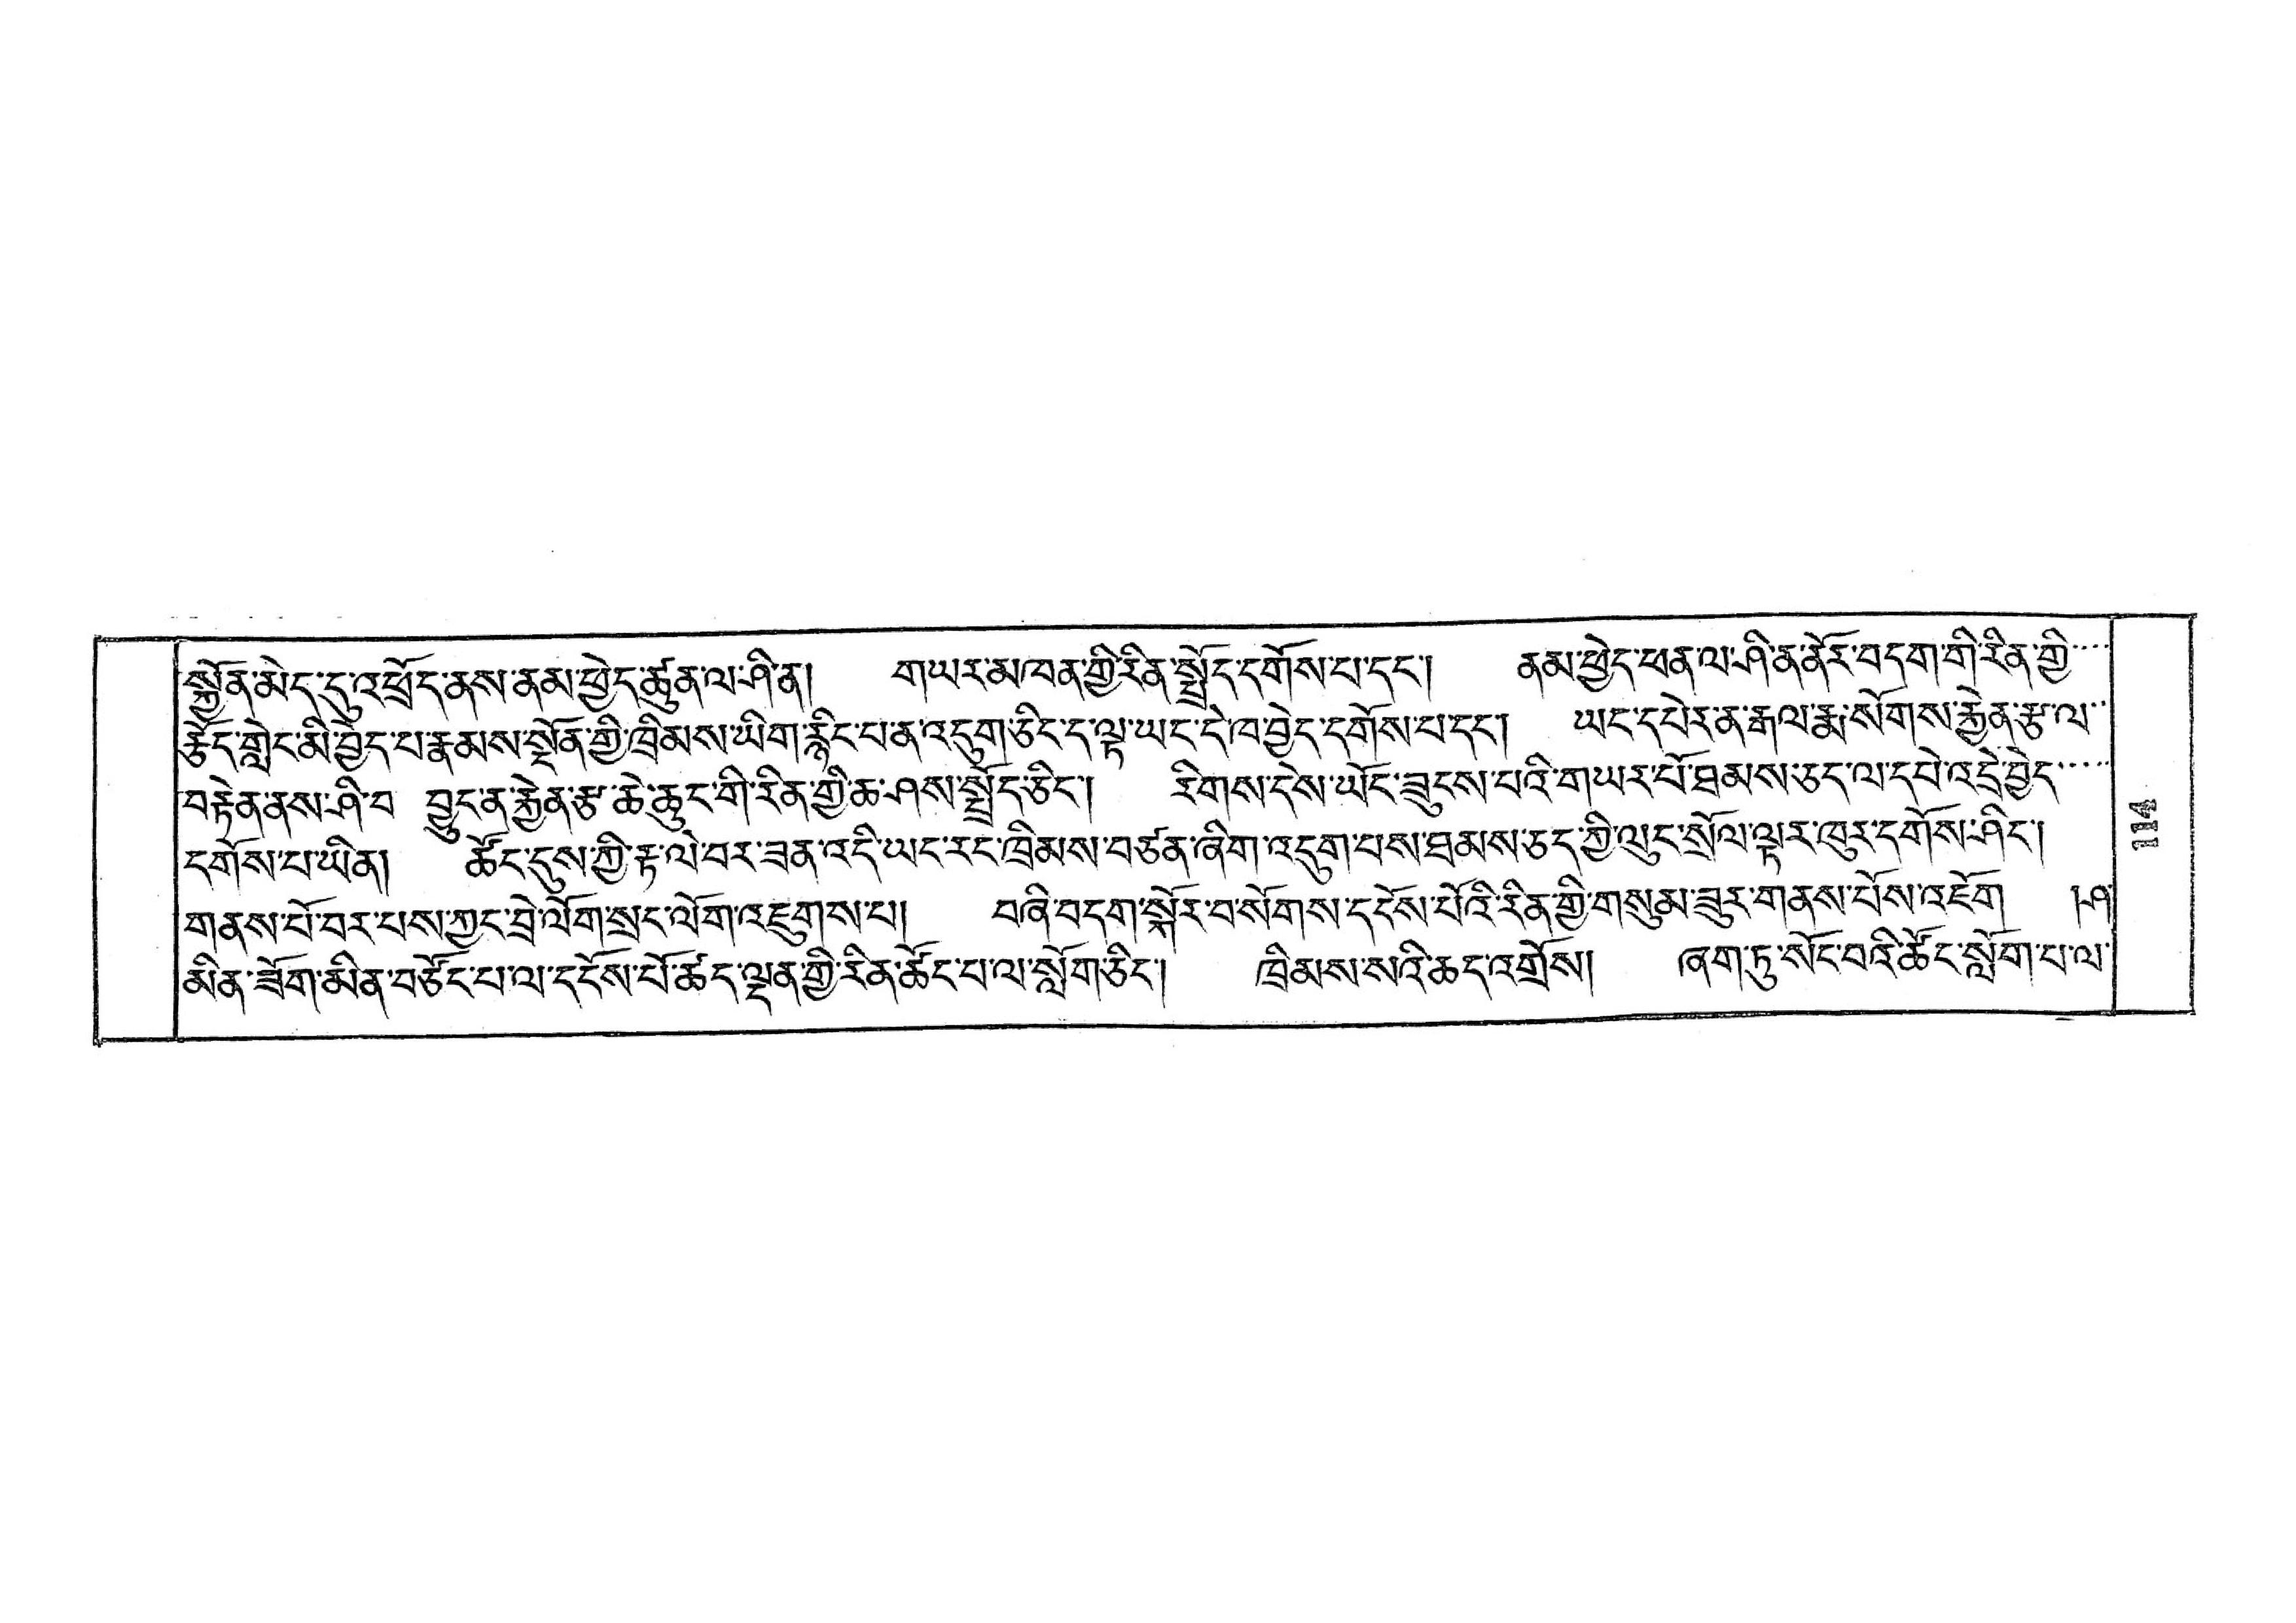སྐྱོན་མེད་དུ་འཕྲོད་ནས་ནམ་ཕྱེད་ཚུན་ལ་ཤི་ན། གཡར་མཁན་གྱི་རིན་སྤྲོད་དགོས་པ་དང་། ནམ་ཕྱེད་ཕན་ལ་ཤི་ན་ནོར་བདག་གི་རིན་གྱི་་་་
རྩོད་གླེང་མི་བྱེད་པ་རྣམས་སྔོན་གྱི་ཁྲིམས་ཡིག་རྙིང་པ་ན་འདུག་ཆིང་ད་ལྟ་ཡང་དེ་ཁ་བྱེད་དགོས་པ་དང་། ཡང་དཔེར་ན་རྒལ་རྨ་སོགས་རྐྱེན་རྩ་ལ་་
བརྟེན་ནས་ཤི་བ་ བྱུང་ན་རྐྱེན་རྩ་ཆེ་ཆུང་གི་རིན་གྱི་ཆ་ཤས་སྤྲོད་ཅིང་། རིགས་དེས་ཡོང་ཟུངས་པའི་གཡར་པོ་ཐམས་ཅད་ལ་དཔེ་འདྲེ་བྱེད་་་་
དགོས་པ་ཡིན། ཚོང་དུས་ཀྱི་རྟ་ལེ་བར་ཟན་འདི་ཡང་རང་ཁྲིམས་བཙན་ཞིག་འདུག་པས་ཐམས་ཅད་གྱི་ལུང་སྲོལ་ལྟར་ཁུར་དགོས་ཤིང་།
གནས་པོ་བར་པས་ཀྱང་བྲེ་ལོག་སྲང་ལོག་འཇུགས་པ། བཞི་བདག་སྐོར་བ་སོགས་དངོས་པོའི་རིན་གྱི་གསུམ་ཟུར་གནས་པོས་འཇོག །ཤ་
མིན་ཟོག་མིན་བཙོང་པ་ལ་དངོས་པོ་ཚད་ལྡན་གྱི་རིན་ཚོང་པ་ལ་སློག་ཅིང་། ཁྲིམས་སའི་ཆད་འགྲོས། ཞག་ཏུ་སོང་བའི་ཚོང་སློག་པ་ལ་
